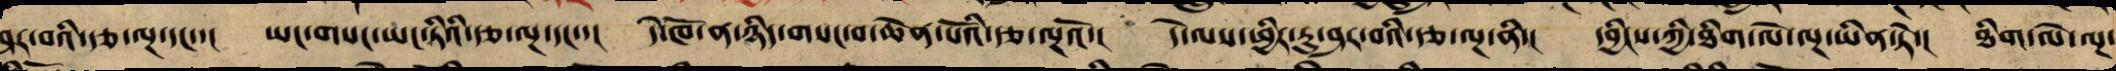ཤར་བའི་རྩ་ལྔ་དང་་། ཡང་གསང་ཡང་ཏིའི་རྩ་ལྔ་དང་་། དེ་ཁོ་ན་ཉིད་གསང་བ་ཆེན་པོའི་རྩ་ལྔའོ་། དེ་ལས་ཕྱི་རུ་ཤར་བའི་རྩ་ལྔ་ནི་། དབྱིངས་ཀྱི་ཐིག་ལེ་ལྔ་ཡིན་ཏེ་། ཐིག་ལེ་ལྔ་
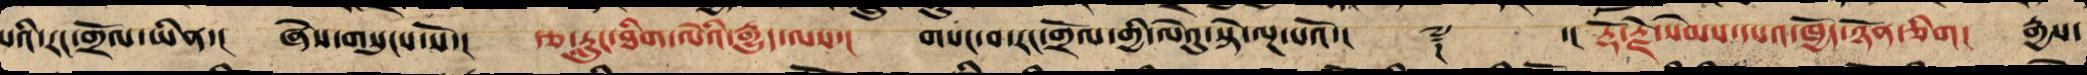པ་རང་གྲོལ་ཡིན་། ཞེས་གསུངས་སོ་། རྩ་རླུང་ཐིག་ལེའི་རྒྱུད་ལས་། གསང་བ་རང་གྲོལ་གྱི་ལེའུ་སྟེ་ལྔ་པའོ་།། ༈ ་།། རྡོ་རྗེ་སེམས་དཔའ་ཁྱོད་ཉོན་ཅིག། རྒྱས་
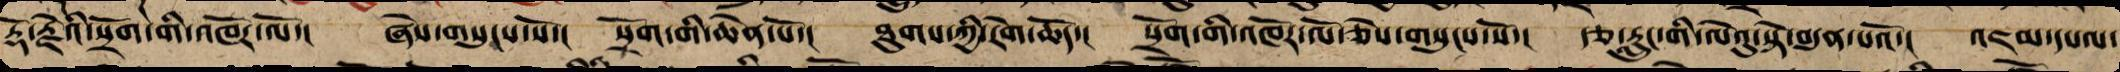རྡོ་རྗེའི་སྲོག་གི་འཁོར་ལོ་། ཞེས་གསུངས་སོ་། སྲོག་གི་ཆེན་པ་།  ཐུགས་ཀྱི་རེག་ཆོད་། སྲོག་གི་འཁོར་ལོ་ཞེས་གསུངས་སོ་། རྩ་རླུང་གི་ལེའུ་སྟེ་བདུན་པའོ་།། འཇམ་དཔལ་
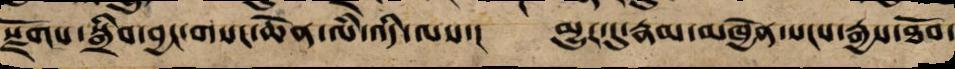སྫོགས་སྒྲིབ་བྱང་གསང་ཆེན་ལཾ་འདི་ལས་། མྱུར་དུ་རྣམ་མཁྱེན་སངས་རྒྱས་ཐོབ་
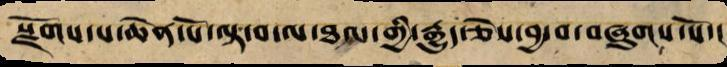སྫོགས་པ་ཆེན་པོ་ལྟ་བ་ལ་ཐལ་གྱི་རྒྱུད་ཅེས་བྱ་བ་བཞུགས་སོ་།
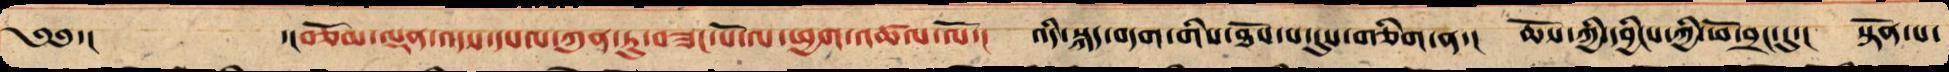༄༅་། ་།བཅོམ་ལྡན་འདས་དཔལ་ཀུན་ཏུ་བཟང་པོ་ལ་ཕྱག་འཚལ་ལོ་། འདི་སྐད་བདག་གིས་ཐོས་པ་དུས་གཅིག་ན་། ཆོས་ཀྱི་དབྱིངས་ཀྱི་ཕོ་བྲང་དུ་། སྟོན་པ་
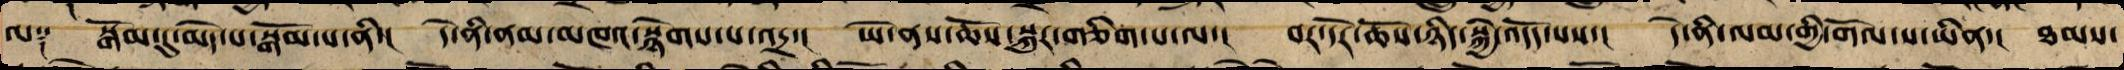ལ༑ སྒོམ་དུ་མེད་པར་བསྒོམ་པ་ནི་། དེ་ནི་ནམ་མཁར་སྙེགས་པ་འདྲ་། ཡེ་ནས་ཆོས་སྐུར་གཅིག་པ་ལ་། བར་དོར་ཆོས་ཉིད་སྐྱེ་འདོད་པ་། དེ་ནི་ལམ་གྱི་གོལ་ས་ཡིན་། ཐམས་
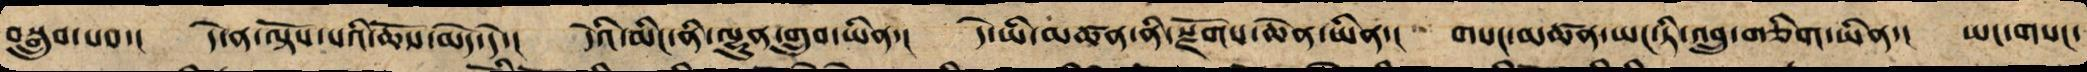བསྒྲུབ་པས་། དེ་ན་ལྟོས་པའི་ཆོས་མེད་དེ་། དེའི་མིང་ནི་ལྷུན་གྲུབ་ཡིན་། དེ་ཡི་མཚན་ནི་སྫོགས་ཆེན་ཡིན་། གསང་མཚན་ཡང་ཏི་འབྲུ་གཅིག་ཡིན་། ཡང་གསང་
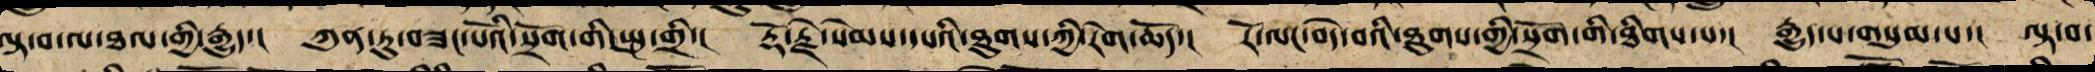ལྟ་བ་ལ་ཐལ་གྱི་རྒྱུད་། ཀུན་ཏུ་བཟང་པོའི་སྲོག་གི་སྤུ་གྲི་། རྡོ་རྗེ་སེམས་དཔའི་ཐུགས་ཀྱི་རེག་ཆོད་། རོ་ལངས་བདེ་བའི་ཐུགས་ཀྱི་སྲོག་གི་ཐིགས་པ་། རྒྱུད་པ་གསུམ་པ་། ལྟ་བ་
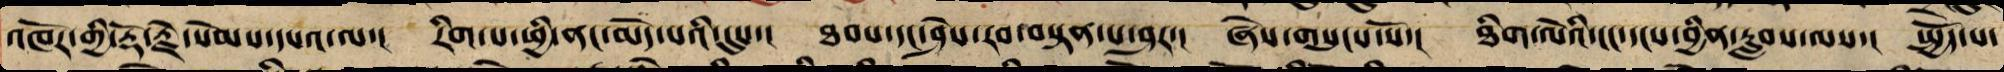འཁོར་གྱི་རྡོ་རྗེ་སེམས་དཔའ་ལ་། རིག་པ་ཕྱི་ནང་མེད་པའི་དུས་། ཐབས་དང་ཤེས་རབ་བསྟན་པ་ཤར་། ཞེས་གསུངས་སོ་། ཐིག་ལེའི་ངང་དངས་བྱིན་རླབས་ལས་། སྤྱོད་པ་
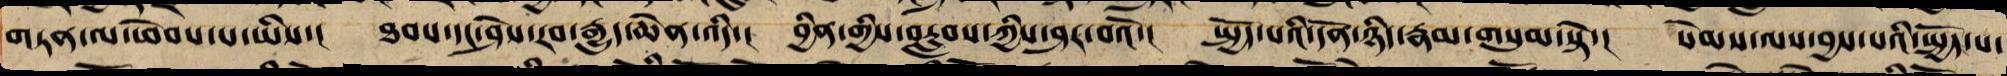གཏན་ལ་ཕེབས་པ་ཡིས་། ཐབས་དང་ཤེས་རབ་རྒྱུད་ཆེན་འདི་། བྱིན་གྱི་བརླབས་ཀྱིས་ཤར་བའོ་། སྤྱོད་པའི་དོན་ཉིད་རྣམ་གསུམ་ཏེ་། སེམས་ལས་བྱས་པའི་སྤྱོད་པ་
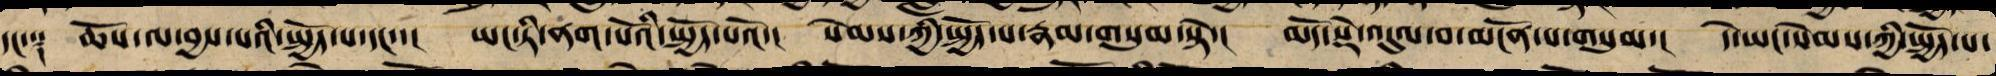དང་༑ ཆོས་ལས་བྱས་པའི་སྤྱོད་པ་དང་་། ཡང་ཏི་ནག་པོའི་སྤྱོད་པའོ་། སེམས་ཀྱི་སྤྱོད་པ་རྣམ་གསུམ་ཏེ་། མདོ་སྡེ་འདུལ་བ་མངོན་པ་གསུམ་། དེ་ཡང་སེམས་ཀྱི་སྤྱོད་པ་
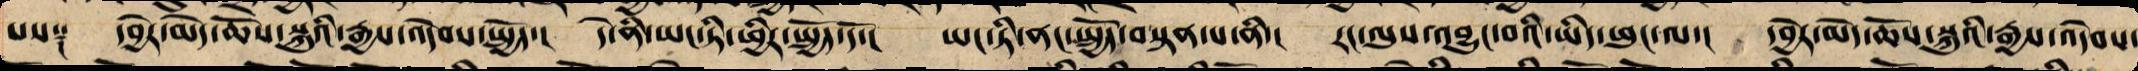པས༑ དབྱེར་མེད་ཆོས་སྐུའི་རྒྱས་འདེབས་སྤྱོད་། དེ་ནི་ཡང་ཏི་ཕྱིར་སྤྱོད་དོ་། ཡང་ཏི་ནང་སྤྱོད་བསྟན་པ་ནི་། རང་ལུས་འབྱུང་བའི་ཡིད་ཕུང་ལ་། དབྱེར་མེད་ཆོས་སྐུའི་རྒྱས་འདེབས་
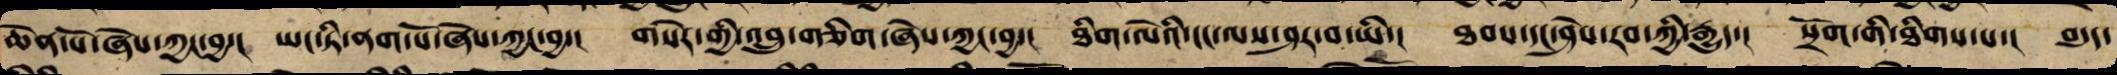ཆེན་པོ་ཞེས་ཀྱང་བྱ་། ཡང་ཏི་ནག་པོ་ཞེས་ཀྱང་བྱ་། གསེར་གྱི་འབྲུ་གཅིག་ཞེས་ཀྱང་བྱ་། ཐིག་ལེའི་ངང་དུ་ཤར་བ་ཡི་། ཐབས་དང་ཤེས་རབ་ཀྱི་རྒྱུད་། སྲོག་གི་ཐིགས་པ་། བདུད་
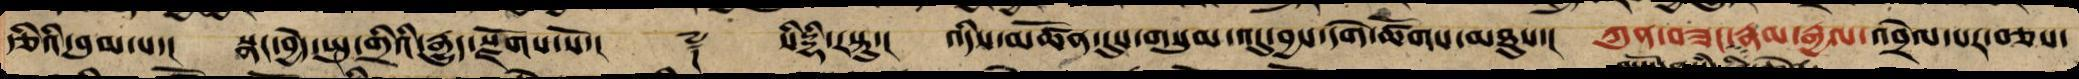རྩིའི་བུམ་པ་། སྣང་བྱེད་སྤུ་གྲིའི་རྒྱུད་སྫོགས་སོ་།། ༈ སིདྡྷི་རསྟུ་། འདིས་མཚོན་དུས་གསུམ་འདུ་བྱས་དགེ་ཚོགས་མཐུས་། ཀུན་བཟང་རྣམ་རྒྱལ་འབྲེལ་པར་བཅས་
